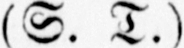(S. T.)
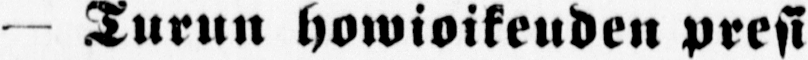— Turun howioikeuden presi-
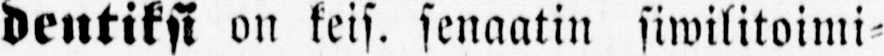dentiksi on keis. senaatin siwilitoimi-
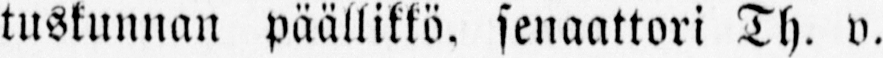tuskunnan päällikkö, senaattori Th. v.
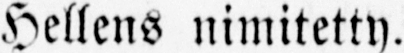Hellens nimitetty.
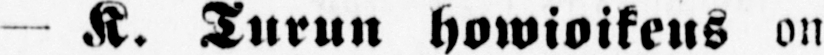— K. Turun howioikeus on
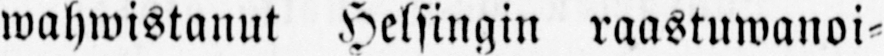wahwistannt Helsingin raastuwanoi-
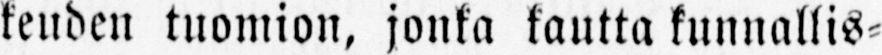keuden tuomion, jonka kautta kunnallis-
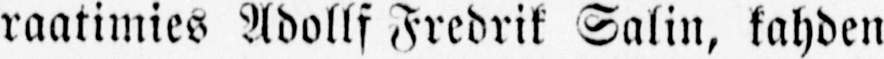raatimies Adollf Fredrik Salin, kahden
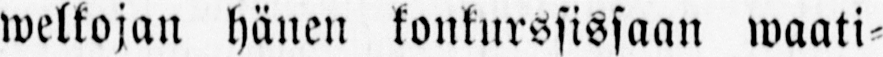welkojan hänen konkurssissaan waati-
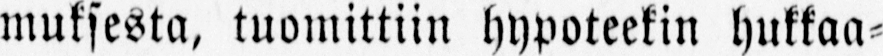muksesta, tuomittiin hypoteekin hukkaa-
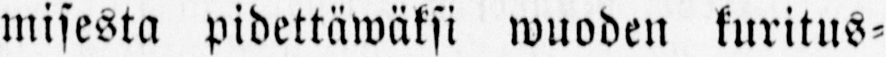misesta pidettäwäksi wuoden kuritus-
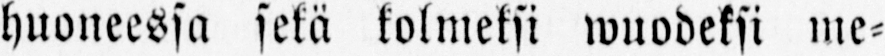huoneessa sekä kolmeksi wuodeksi me-
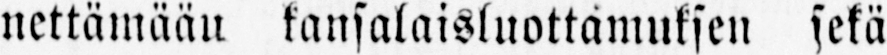nettämään kansalaisluottamuksen sekä
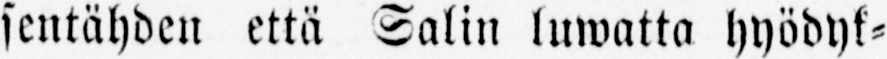sentähden että Salin luwatta hyödyk-
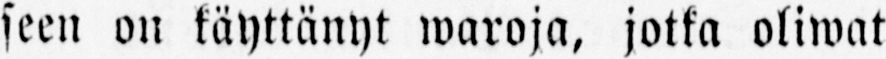seen on käyttänyt waroja, jotka oliwat
